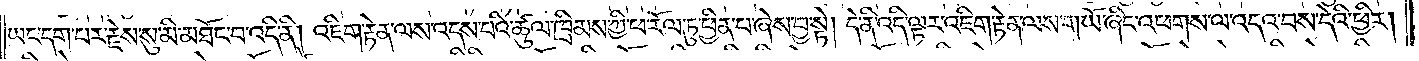ཡང་དག་པར་རྗེས་སུ་མི་མཐོང་བ་འདི་ནི། འཇིག་རྟེན་ལས་འདས་པའི་ཚུལ་ཁྲིམས་ཀྱི་ཕ་རོལ་ཏུ་ཕྱིན་པ་ཞེས་བྱ་སྟེ། དེ་ནི་འདི་ལྟར་འཇིག་རྟེན་ལས་གཡོ་ཞིང་འཕགས་ལ་འདའ་བས་དེའི་ཕྱིར།
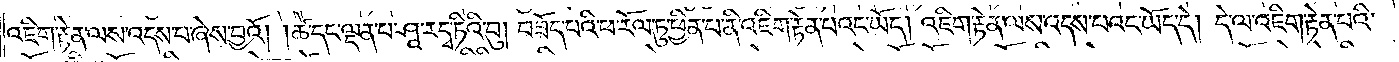འཇིག་རྟེན་ལས་འདས་པ་ཞེས་བྱའོ། །ཚེ་དང་ལྡན་པ་ཤཱ་ར་དྭ་ཏིའི་བུ། བཟོད་པའི་ཕ་རོལ་ཏུ་ཕྱིན་པ་ནི་འཇིག་རྟེན་པའང་ཡོད། འཇིག་རྟེན་ལས་འདས་པའང་ཡོད་དེ། དེ་ལ་འཇིག་རྟེན་པའི་
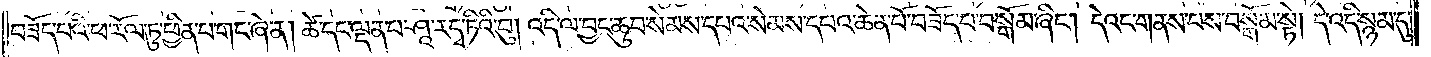བཟོད་པའི་ཕ་རོལ་ཏུ་ཕྱིན་པ་གང་ཞེ་ན། ཚེ་དང་ལྡན་པ་ཤཱ་ར་དྭ་ཏིའི་བུ། འདི་ལ་བྱང་ཆུབ་སེམས་དཔའ་སེམས་དཔའ་ཆེན་པོ་བཟོད་པ་བསྒོམ་ཞིང༌། དེའང་གནས་པས་བསྒོམ་སྟེ། དེ་འདི་སྙམ་དུ་
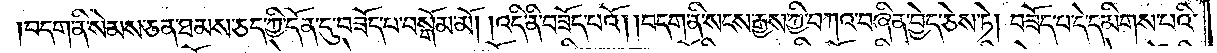བདག་ནི་སེམས་ཅན་ཐམས་ཅད་ཀྱི་དོན་དུ་བཟོད་པ་བསྒོམ་མོ། །འདི་ནི་བཟོད་པའོ། །བདག་ནི་སངས་རྒྱས་ཀྱི་བཀའ་བཞིན་བྱེད་ཅེས་ཏེ། བཟོད་པ་དེ་དམིགས་པའི་
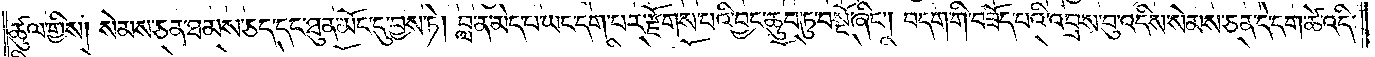ཚུལ་གྱིས། སེམས་ཅན་ཐམས་ཅད་དང་ཐུན་མོང་དུ་བྱས་ཏེ། བླ་ན་མེད་པ་ཡང་དག་པར་རྫོགས་པའི་བྱང་ཆུབ་ཏུ་བསྔོ་ཞིང༌། བདག་གི་བཟོད་པའི་འབྲས་བུ་འདིས་སེམས་ཅན་དེ་དག་ཚེ་འདི་
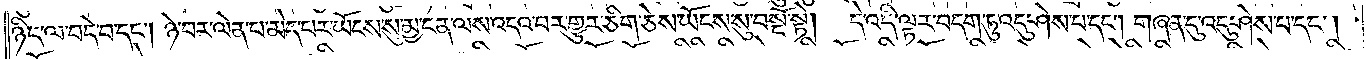ཉིད་ལ་བདེ་བ་དང༌། ཉེ་བར་ལེན་པ་མེད་པར་ཡོངས་སུ་མྱ་ངན་ལས་འདའ་བར་གྱུར་ཅིག་ཅེས་ཡོངས་སུ་བསྔོ་སྟེ། དེ་འདི་ལྟར་བདག་ཏུ་འདུ་ཤེས་པ་དང༌། གཞན་དུ་འདུ་ཤེས་པ་དང༌།
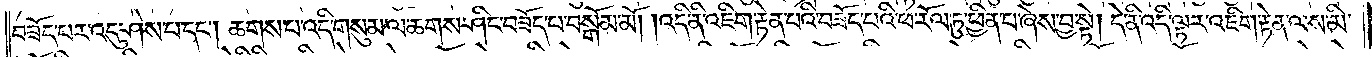བཟོད་པར་འདུ་ཤེས་པ་དང༌། ཆགས་པ་འདི་གསུམ་ལ་ཆགས་ཤིང་བཟོད་པ་བསྒོམ་མོ། །འདི་ནི་འཇིག་རྟེན་པའི་བཟོད་པའི་ཕ་རོལ་ཏུ་ཕྱིན་པ་ཞེས་བྱ་སྟེ། དེ་ནི་འདི་ལྟར་འཇིག་རྟེན་ལས་མི་
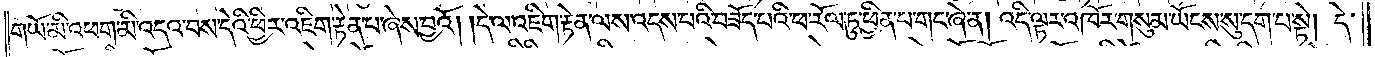གཡོ་མི་འཕགས་མི་འདའ་བས་དེའི་ཕྱིར་འཇིག་རྟེན་པ་ཞེས་བྱའོ། །དེ་ལ་འཇིག་རྟེན་ལས་འདས་པའི་བཟོད་པའི་ཕ་རོལ་ཏུ་ཕྱིན་པ་གང་ཞེ་ན། འདི་ལྟར་འཁོར་གསུམ་ཡོངས་སུ་དག་པ་སྟེ། དེ་
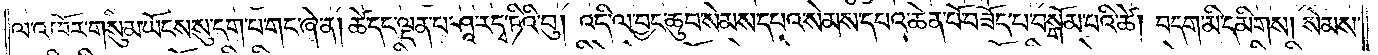ལ་འཁོར་གསུམ་ཡོངས་སུ་དག་པ་གང་ཞེ་ན། ཚེ་དང་ལྡན་པ་ཤཱ་ར་དྭ་ཏིའི་བུ། འདི་ལ་བྱང་ཆུབ་སེམས་དཔའ་སེམས་དཔའ་ཆེན་པོ་བཟོད་པ་བསྒོམ་པའི་ཚེ། བདག་མི་དམིགས། སེམས་
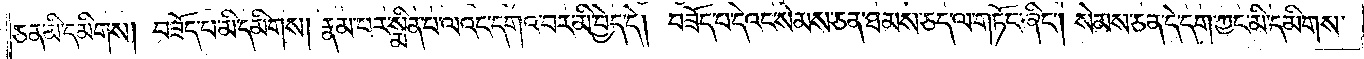ཅན་མི་དམིགས། བཟོད་པ་མི་དམིགས། རྣམ་པར་སྨིན་པ་ལའང་དགའ་བར་མི་བྱེད་དེ། བཟོད་པ་དེའང་སེམས་ཅན་ཐམས་ཅད་ལ་གཏོང་ཞིང༌། སེམས་ཅན་དེ་དག་ཀྱང་མི་དམིགས་
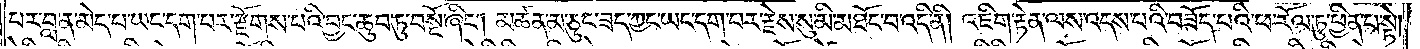པར་བླ་ན་མེད་པ་ཡང་དག་པར་རྫོགས་པའི་བྱང་ཆུབ་ཏུ་བསྔོ་ཞིང༌། མཚན་མ་ཅུང་ཟད་ཀྱང་ཡང་དག་པར་རྗེས་སུ་མི་མཐོང་བ་འདི་ནི། འཇིག་རྟེན་ལས་འདས་པའི་བཟོད་པའི་ཕ་རོལ་ཏུ་ཕྱིན་པ་སྟེ།
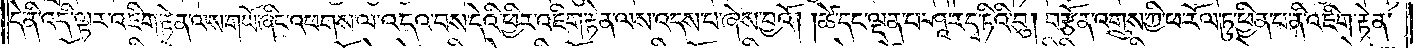དེ་ནི་འདི་ལྟར་འཇིག་རྟེན་ལས་གཡོ་ཞིང་འཕགས་ལ་འདའ་བས་དེའི་ཕྱིར་འཇིག་རྟེན་ལས་འདས་པ་ཞེས་བྱའོ། །ཚེ་དང་ལྡན་པ་ཤཱ་ར་དྭ་ཏིའི་བུ། བརྩོན་འགྲུས་ཀྱི་ཕ་རོལ་ཏུ་ཕྱིན་པ་ནི་འཇིག་རྟེན་
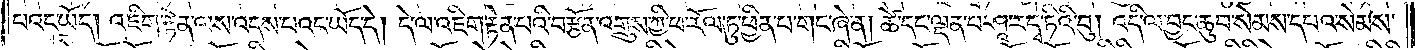པའང་ཡོད། འཇིག་རྟེན་ལས་འདས་པའང་ཡོད་དེ། དེ་ལ་འཇིག་རྟེན་པའི་བརྩོན་འགྲུས་ཀྱི་ཕ་རོལ་ཏུ་ཕྱིན་པ་གང་ཞེ་ན། ཚེ་དང་ལྡན་པ་ཤཱ་ར་དྭ་ཏིའི་བུ། འདི་ལ་བྱང་ཆུབ་སེམས་དཔའ་སེམས་
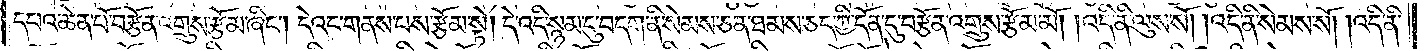དཔའ་ཆེན་པོ་བརྩོན་འགྲུས་རྩོམ་ཞིང༌། དེའང་གནས་པས་རྩོམ་སྟེ། དེ་འདི་སྙམ་དུ་བདག་ནི་སེམས་ཅན་ཐམས་ཅད་ཀྱི་དོན་དུ་བརྩོན་འགྲུས་རྩོམ་མོ། །འདི་ནི་ལུས་སོ། །འདི་ནི་སེམས་སོ། །འདི་ནི་
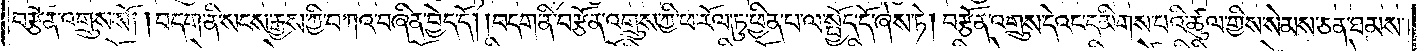བརྩོན་འགྲུས་སོ། །བདག་ནི་སངས་རྒྱས་ཀྱི་བཀའ་བཞིན་བྱེད་དོ། །བདག་ནི་བརྩོན་འགྲུས་ཀྱི་ཕ་རོལ་ཏུ་ཕྱིན་པ་ལ་སྤྱོད་དོ་ཞེས་ཏེ། བརྩོན་འགྲུས་དེའང་དམིགས་པའི་ཚུལ་གྱིས་སེམས་ཅན་ཐམས་
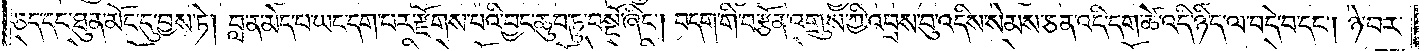ཅད་དང་ཐུན་མོང་དུ་བྱས་ཏེ། བླ་ན་མེད་པ་ཡང་དག་པར་རྫོགས་པའི་བྱང་ཆུབ་ཏུ་བསྔོ་ཞིང༌། བདག་གི་བརྩོན་འགྲུས་ཀྱི་འབྲས་བུ་འདིས་སེམས་ཅན་འདི་དག་ཚེ་འདི་ཉིད་ལ་བདེ་བ་དང༌། ཉེ་བར་
